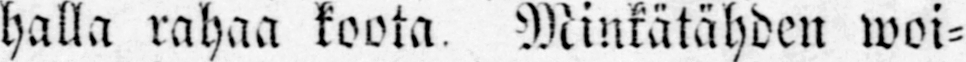halla rahaa koota. Minkätähden woi-
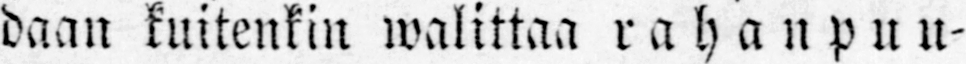daan kuitenkin walittaa rahanpuu-
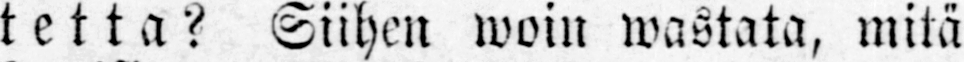tetta? Siihen woin wastata, mitä
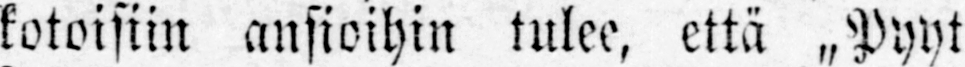kotoisiin ansioihin tulee, että „Pyyt
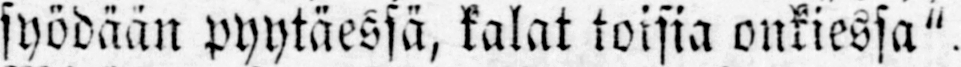syödään pyytäessä, kalat toisia onkiessa".
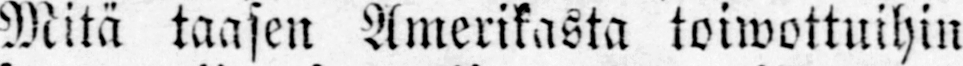Mitä taasen Amerikasta toiwottuihin
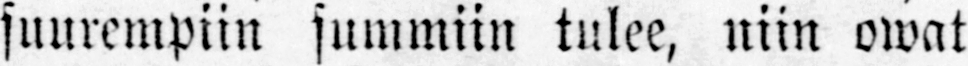suurempiin summiin tulee, niin owat
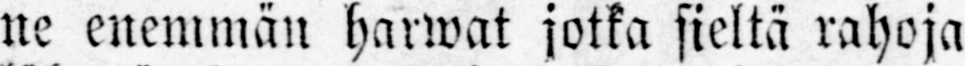ne enemmän harwat jotka sieltä rahoja
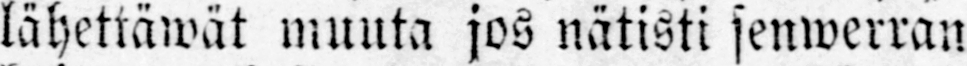lähettäwät muuta jos nätisti senwerran
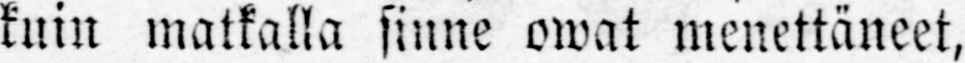kuin matkalla sinne owat menettäneet,
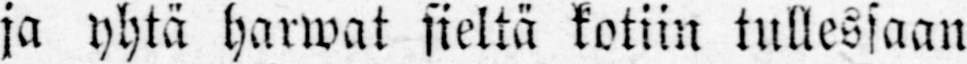ja yhtä harwat sieltä kotiin tulleosaan
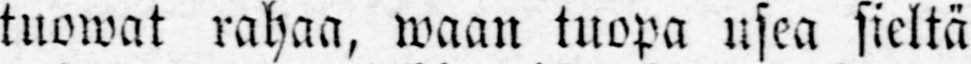tuowat rahaa, waan tuopa usea sieltä
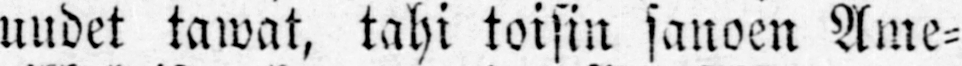uudet tawat, tahi toisin sanoen Ame-
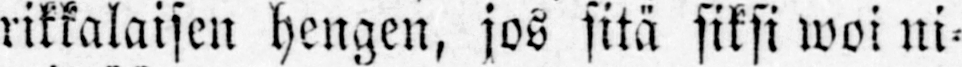rikkalaisen hengen, jos sitä siksi woi ni-
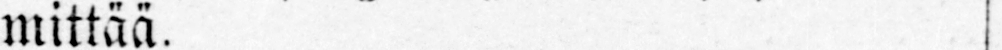mittää.
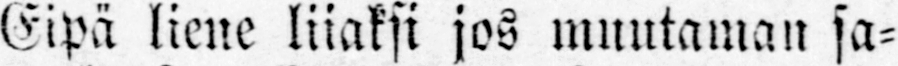Eipä liene liiaksi jos muutaman sa-
